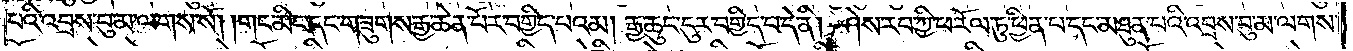པའི་འབྲས་བུ་མ་ལགས་སོ། །གང་མིང་དང་གཟུགས་རྒྱ་ཆེན་པོར་བགྱིད་པའམ། རྒྱ་ཆུང་ངུར་བགྱིད་པ་དེ་ནི། ཤེས་རབ་ཀྱི་ཕ་རོལ་ཏུ་ཕྱིན་པ་དང་མཐུན་པའི་འབྲས་བུ་མ་ལགས་
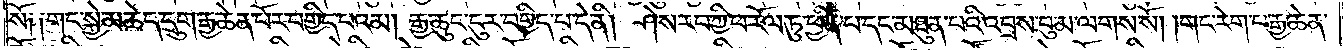སོ༑ ༑གང་སྐྱེ་མཆེད་དྲུག་རྒྱ་ཆེན་པོར་བགྱིད་པའམ། རྒྱ་ཆུང་ངུར་བགྱིད་པ་དེ་ནི། ཤེས་རབ་ཀྱི་ཕ་རོལ་ཏུ་ཕྱིན་པ་དང་མཐུན་པའི་འབྲས་བུ་མ་ལགས་སོ། །གང་རེག་པ་རྒྱ་ཆེན་
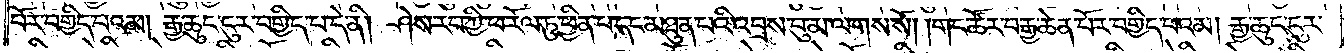པོར་བགྱིད་པའམ། རྒྱ་ཆུང་ངུར་བགྱིད་པ་དེ་ནི། ཤེས་རབ་ཀྱི་ཕ་རོལ་ཏུ་ཕྱིན་པ་དང་མཐུན་པའི་འབྲས་བུ་མ་ལགས་སོ། །གང་ཚོར་བ་རྒྱ་ཆེན་པོར་བགྱིད་པའམ། རྒྱ་ཆུང་ངུར་
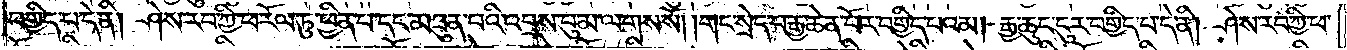བགྱིད་པ་དེ་ནི། ཤེས་རབ་ཀྱི་ཕ་རོལ་ཏུ་ཕྱིན་པ་དང་མཐུན་པའི་འབྲས་བུ་མ་ལགས་སོ། །གང་སྲེད་པ་རྒྱ་ཆེན་པོར་བགྱིད་པའམ། རྒྱ་ཆུང་ངུར་བགྱིད་པ་དེ་ནི། ཤེས་རབ་ཀྱི་ཕ་
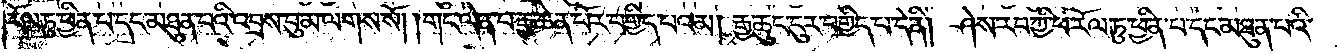རོལ་ཏུ་ཕྱིན་པ་དང་མཐུན་པའི་འབྲས་བུ་མ་ལགས་སོ། །གང་ལེན་པ་རྒྱ་ཆེན་པོར་བགྱིད་པའམ། རྒྱ་ཆུང་ངུར་བགྱིད་པ་དེ་ནི། ཤེས་རབ་ཀྱི་ཕ་རོལ་ཏུ་ཕྱིན་པ་དང་མཐུན་པའི་
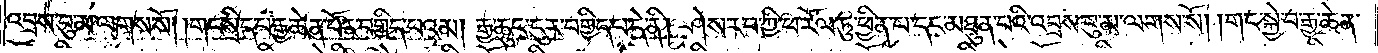འབྲས་བུ་མ་ལགས་སོ། །གང་སྲིད་པ་རྒྱ་ཆེན་པོར་བགྱིད་པའམ། རྒྱ་ཆུང་ངུར་བགྱིད་པ་དེ་ནི། ཤེས་རབ་ཀྱི་ཕ་རོལ་ཏུ་ཕྱིན་པ་དང་མཐུན་པའི་འབྲས་བུ་མ་ལགས་སོ། །གང་སྐྱེ་བ་རྒྱ་ཆེན་
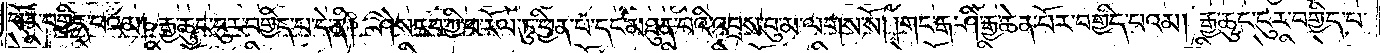པོར་བགྱིད་པའམ། རྒྱ་ཆུང་ངུར་བགྱིད་པ་དེ་ནི། ཤེས་རབ་ཀྱི་ཕ་རོལ་ཏུ་ཕྱིན་པ་དང་མཐུན་པའི་འབྲས་བུ་མ་ལགས་སོ། །གང་རྒ་ཤི་རྒྱ་ཆེན་པོར་བགྱིད་པའམ། རྒྱ་ཆུང་ངུར་བགྱིད་པ་
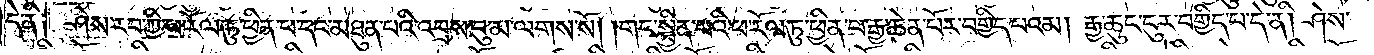དེ་ནི༑ ཤེས་རབ་ཀྱི་ཕ་རོལ་ཏུ་ཕྱིན་པ་དང་མཐུན་པའི་འབྲས་བུ་མ་ལགས་སོ། །གང་སྦྱིན་པའི་ཕ་རོལ་ཏུ་ཕྱིན་པ་རྒྱ་ཆེན་པོར་བགྱིད་པའམ། རྒྱ་ཆུང་ངུར་བགྱིད་པ་དེ་ནི། ཤེས་
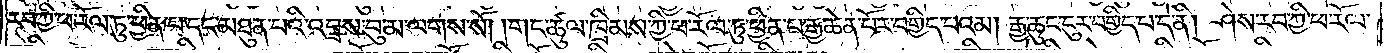རབ་ཀྱི་ཕ་རོལ་ཏུ་ཕྱིན་པ་དང་མཐུན་པའི་འབྲས་བུ་མ་ལགས་སོ། །གང་ཚུལ་ཁྲིམས་ཀྱི་ཕ་རོལ་ཏུ་ཕྱིན་པ་རྒྱ་ཆེན་པོར་བགྱིད་པའམ། རྒྱ་ཆུང་ངུར་བགྱིད་པ་དེ་ནི། ཤེས་རབ་ཀྱི་ཕ་རོལ་
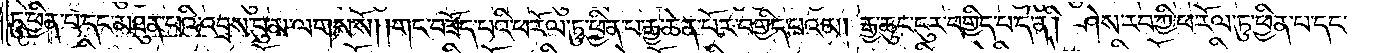ཏུ་ཕྱིན་པ་དང་མཐུན་པའི་འབྲས་བུ་མ་ལགས་སོ། །གང་བཟོད་པའི་ཕ་རོལ་ཏུ་ཕྱིན་པ་རྒྱ་ཆེན་པོར་བགྱིད་པའམ། རྒྱ་ཆུང་ངུར་བགྱིད་པ་དེ་ནི། ཤེས་རབ་ཀྱི་ཕ་རོལ་ཏུ་ཕྱིན་པ་དང་
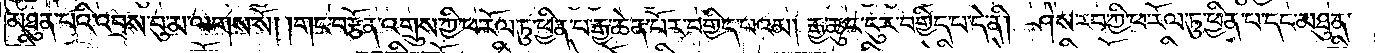མཐུན་པའི་འབྲས་བུ་མ་ལགས་སོ། །གང་བརྩོན་འགྲུས་ཀྱི་ཕ་རོལ་ཏུ་ཕྱིན་པ་རྒྱ་ཆེན་པོར་བགྱིད་པའམ། རྒྱ་ཆུང་ངུར་བགྱིད་པ་དེ་ནི། ཤེས་རབ་ཀྱི་ཕ་རོལ་ཏུ་ཕྱིན་པ་དང་མཐུན་
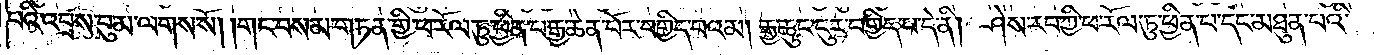པའི་འབྲས་བུ་མ་ལགས་སོ། །གང་བསམ་གཏན་གྱི་ཕ་རོལ་ཏུ་ཕྱིན་པ་རྒྱ་ཆེན་པོར་བགྱིད་པའམ། རྒྱ་ཆུང་ངུར་བགྱིད་པ་དེ་ནི། ཤེས་རབ་ཀྱི་ཕ་རོལ་ཏུ་ཕྱིན་པ་དང་མཐུན་པའི་
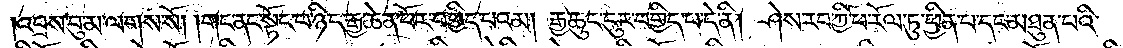འབྲས་བུ་མ་ལགས་སོ། །གང་ནང་སྟོང་པ་ཉིད་རྒྱ་ཆེན་པོར་བགྱིད་པའམ། རྒྱ་ཆུང་ངུར་བགྱིད་པ་དེ་ནི། ཤེས་རབ་ཀྱི་ཕ་རོལ་ཏུ་ཕྱིན་པ་དང་མཐུན་པའི་
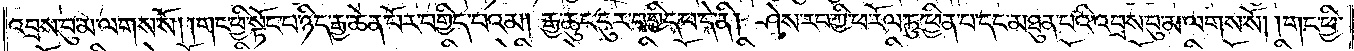འབྲས་བུ་མ་ལགས་སོ། །གང་ཕྱི་སྟོང་པ་ཉིད་རྒྱ་ཆེན་པོར་བགྱིད་པའམ། རྒྱ་ཆུང་ངུར་བགྱིད་པ་དེ་ནི། ཤེས་རབ་ཀྱི་ཕ་རོལ་ཏུ་ཕྱིན་པ་དང་མཐུན་པའི་འབྲས་བུ་མ་ལགས་སོ། །གང་ཕྱི་
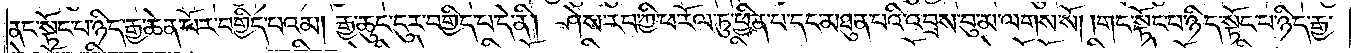ནང་སྟོང་པ་ཉིད་རྒྱ་ཆེན་པོར་བགྱིད་པའམ། རྒྱ་ཆུང་ངུར་བགྱིད་པ་དེ་ནི། ཤེས་རབ་ཀྱི་ཕ་རོལ་ཏུ་ཕྱིན་པ་དང་མཐུན་པའི་འབྲས་བུ་མ་ལགས་སོ། །གང་སྟོང་པ་ཉིད་སྟོང་པ་ཉིད་རྒྱ་
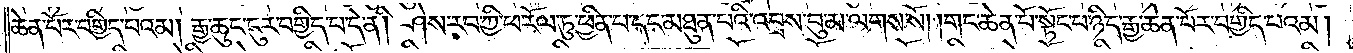ཆེན་པོར་བགྱིད་པའམ། རྒྱ་ཆུང་ངུར་བགྱིད་པ་དེ་ནི། ཤེས་རབ་ཀྱི་ཕ་རོལ་ཏུ་ཕྱིན་པ་དང་མཐུན་པའི་འབྲས་བུམ་ལགས་སོ། །གང་ཆེན་པོ་སྟོང་པ་ཉིད་རྒྱ་ཆེན་པོར་བགྱིད་པའམ།
